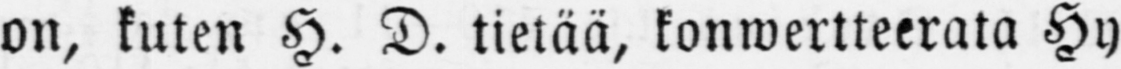on, kuten H. D. tietää, konwertteerata Hy-
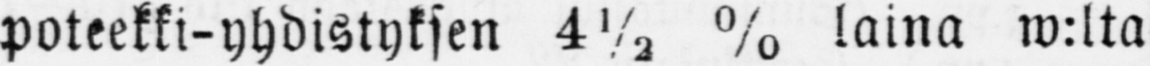poteekki-yhdistyksen 4½ % laina w:lta
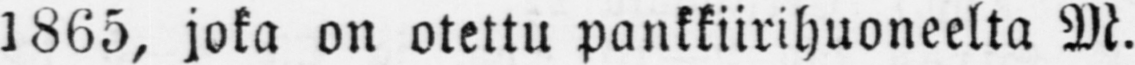1865, joka on otettu pankkiirihuoneelta M.
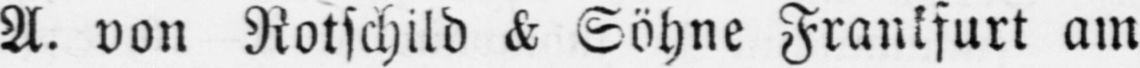A. von Rotschild & Söhne Frankfurt am
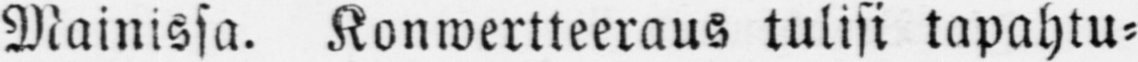Mainissa. Konwertteeraus tulisi tapahtu-
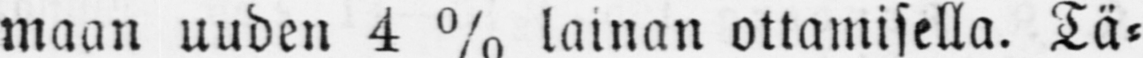maan uuden 4 % lainan ottamisella. Tä-
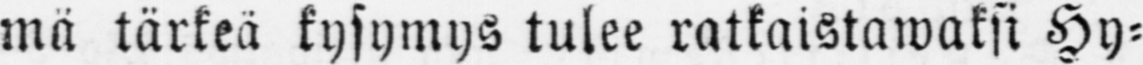mä tärkeä kysymys tulee ratkaistawaksi Hy-
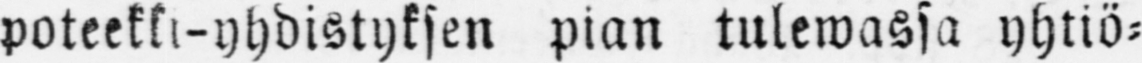poteekki-yhdistyksen pian tulewassa yhtiö-
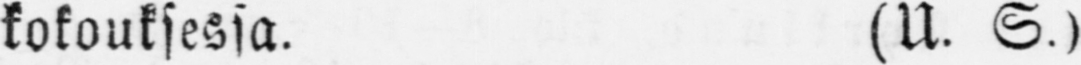kokouksessa. (U. S.)
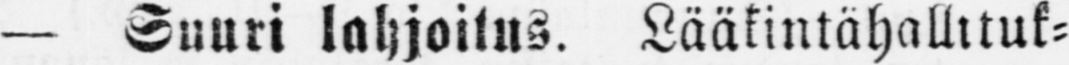— Suuri lahjoitus. Lääkintähallituk-
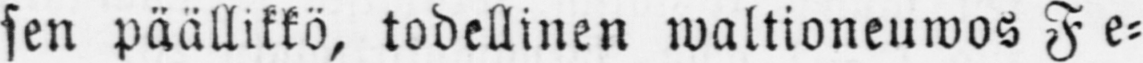sen päällikkö, todellinen waltioneuwos Fe-
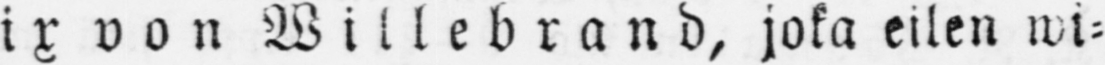lix von Willebrand, joka eilen wi-
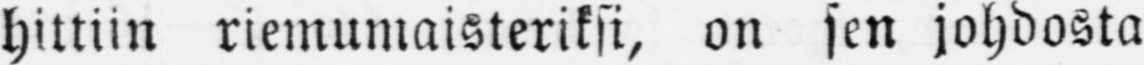hittiin riemumaisteriksi, on sen johdosta
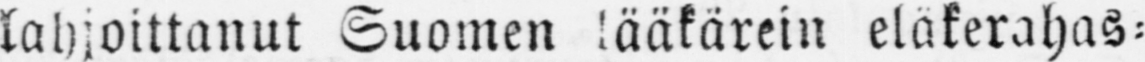lahjoittanut Suomen lääkärein eläkerahas-
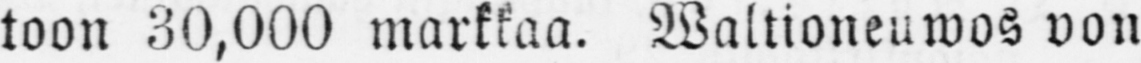toon 30,000 markkaa. Waltioneuwos von
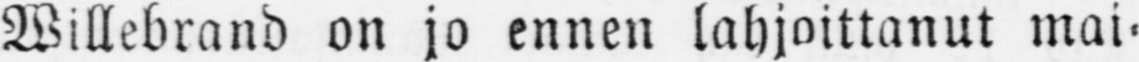Willebrand on jo ennen lahjoittanut mai-
